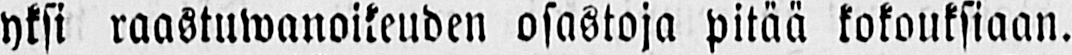yksi raastuwanoikeuden osastoja pitää kokouksiaan.
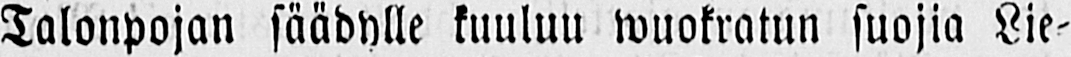Talonpojan säädylle kuuluu wuokratun suojia Lie-
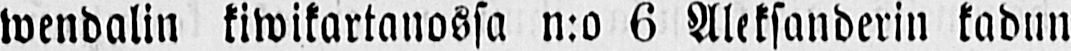wendalin kiwikartanossa n:o 6 Aleksanderin kadun
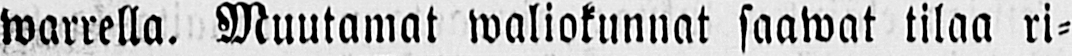warrella. Muutamat waliokunnat saawat tilaa ri-
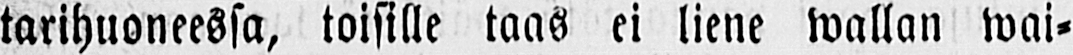tarihuoneessa, toisille taas ei liene wallan wai-
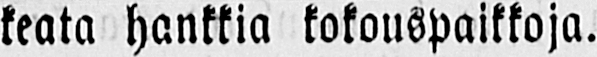keata hankkia kokouspaikkoja.
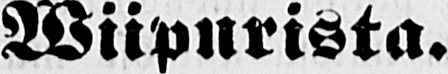Wiipurista.
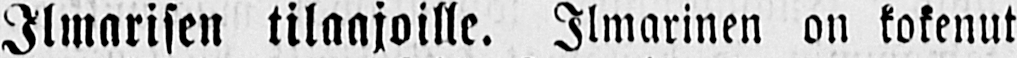Ilmarisen tilaajoille. Ilmarinen on kokenut
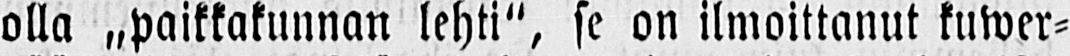olla „paikkakunnan lehti", se on ilmoittanut kuwer-
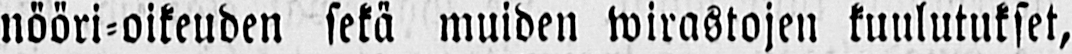nööri-oikeuden sekä muiden wirastojen kuulutukset,
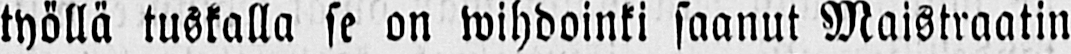työllä tuskalla se on wihdoinki saanut Maistraatin
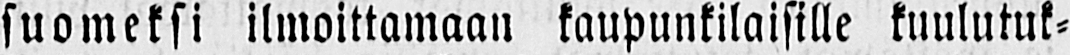suomeksi ilmoittamaan kaupunkilaisille kuulutuk-
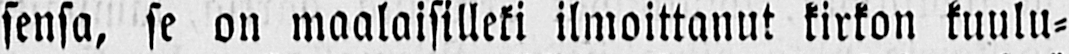sensa, se on maalaisilleki ilmoittanut kirkon kuulu-
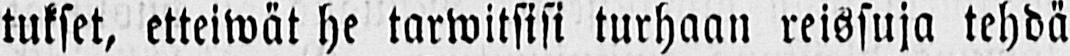tukset, etteiwät he tarwitsisi turhaan reissuja tehdä
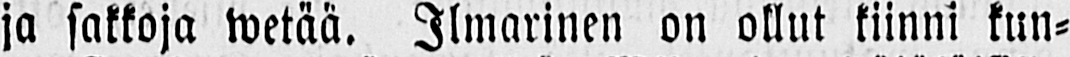ja sakkoja wetää. Ilmarinen on ollut kiinni kun-
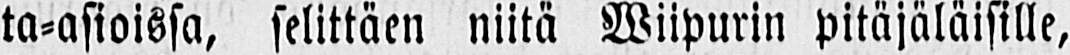ta-asioissa, selittäen niitä Wiipurin pitäjäläisille,
